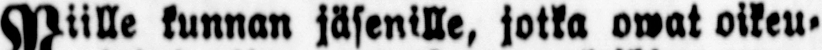Niille kunnan jäsenille, jotka owat oikeu-
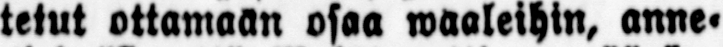tetut ottamaan osaa waaleihin, anne-
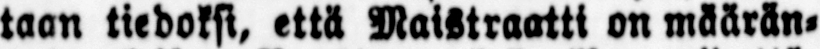taan tiedoksi, että Maistraatti on määrän-
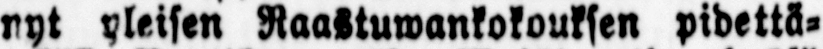nyt yleisen Raastuwankokouksen pidettä-
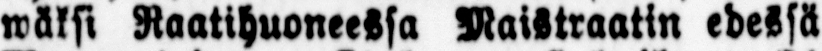wäksi Raatihuoneessa Maistraatin edessä
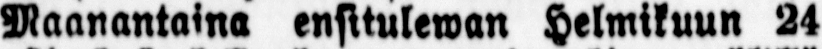Maanantaina ensitulewan Helmikuun 24
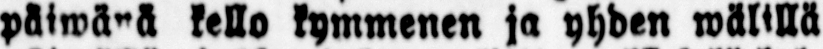päiwänä kello kymmenen ja yhden w ä lillä
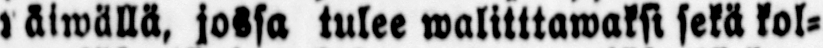päiwällä, jossa tulee walitttawaksi sekä kol-
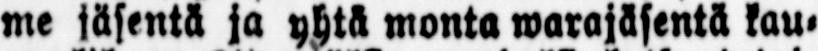me jäsentä ja yhtä monta warajäsentä kau-
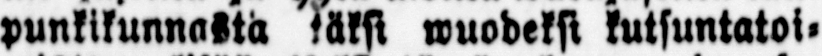punkikunnastä täksi wuodeksi kutsuntatoi-
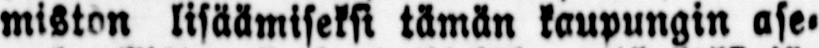miston lisäämiseksi tämän kaupungin ase-
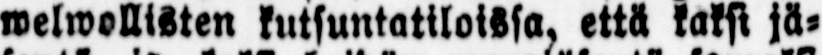welwollisten kutsuntatiloissa, että kaksi jä-
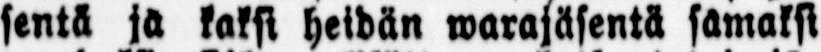sentä ja kaksi heidän warajäsentä samaksi
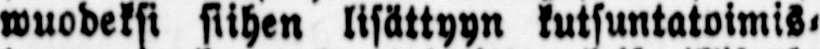wuodeksi siihen lisättyyn kutsuntatoimis-
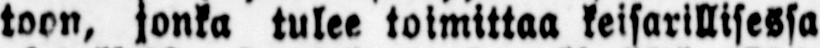toon, jonka tulee toimittaa keisarillisessa
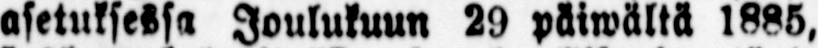asetuksessa Joulukuun 29 päiwältä 1885,
